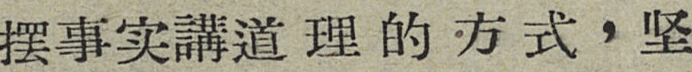摆事实講道理的方式，坚
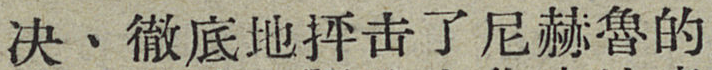决、徹底地抨击了尼赫魯的
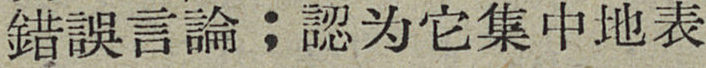錯誤言論；認为它集中地表
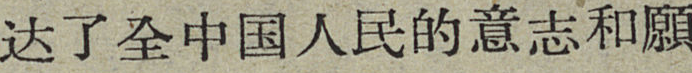达了全中国人民的意志和願
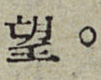望。
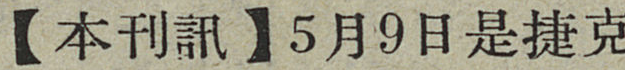【本刊訊】5月9日是捷克
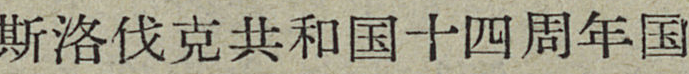斯洛伐克共和国十四周年国
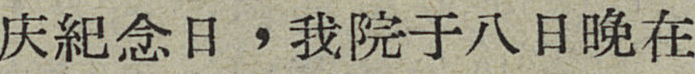庆紀念日，我院于八日晚在
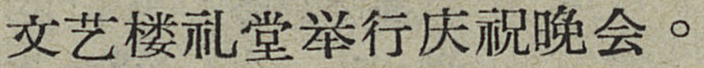文艺楼礼堂举行庆祝晚会。
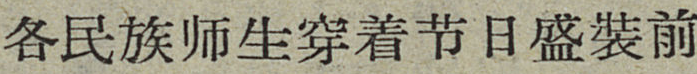各民族师生穿着节日盛装前
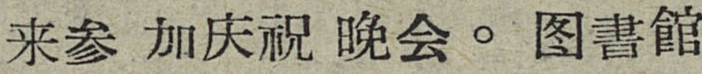来参加庆祝晚会。图書館
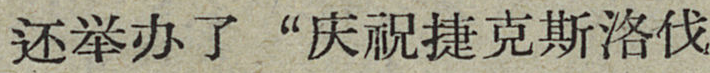还举办了“庆祝捷克斯洛伐
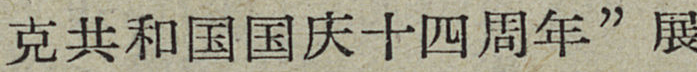克共和国国庆十四周年”展
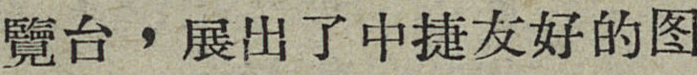覽台，展出了中捷友好的图
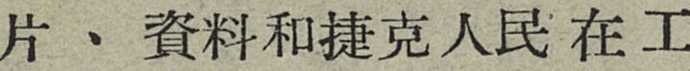片、資料和捷克人民在工
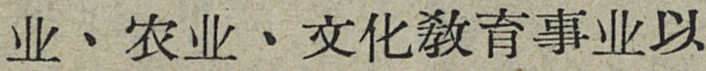业、农业、文化敎育事业以
